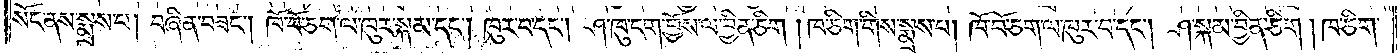སོང་ནས་སྨྲས་པ། བཞིན་བཟང༌། ཁོ་བོ་ཅག་ལ་ཁུར་སྐམ་དང༌། ཁུར་བ་དང༌། ཤ་ཁུ་དག་བྱོས་ལ་བྱིན་ཅིག །ཁ་ཅིག་གིས་སྨྲས་པ། ཁོ་བོ་ཅག་ལ་ཁུར་བ་དང༌། ཤ་སྐམ་བྱིན་ཅིག །ཁ་ཅིག་
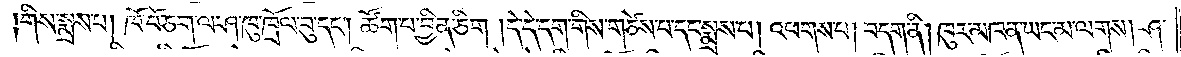གིས་སྨྲས་པ། ཁོ་བོ་ཅག་ལ་ཤ་ཁུ་ཁྲོལ་བུ་དང༌། ཚོག་པ་བྱིན་ཅིག །དེ་དེ་དག་གིས་གཙེས་པ་དང་སྨྲས་པ། འཕགས་པ། བདག་ནི། ཁུར་མཁན་ཡང་མ་ལགས། ཤ་
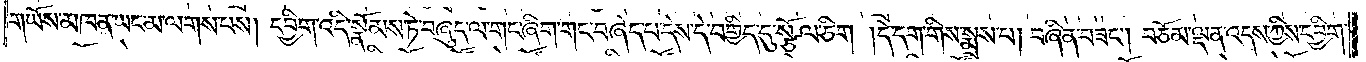གཡོས་མཁན་ཡང་མ་ལགས་པས། དབྱིག་འདི་སྣོམས་ཏེ་བཞུད་ལ་གང་ཞིག་གང་བཞེད་པ་དེས་དེ་བགྱིད་དུ་སྩོལ་ཅིག །དེ་དག་གིས་སྨྲས་པ། བཞིན་བཟང༌། བཅོམ་ལྡན་འདས་ཀྱིས་དབྱིག་
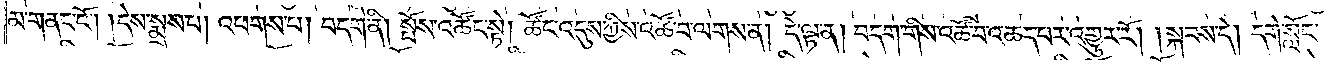མ་གནང་ངོ༌། །དེས་སྨྲས་པ། འཕགས་པ། བདག་ནི། སྤོས་འཚོང་སྟེ། ཚོང་འདུས་ཀྱིས་འཚོ་བ་ལགས་ན། དེ་ལྟ་ན། བདག་གིས་འཚོ་བ་འཆད་པར་འགྱུར་རོ། །སྐབས་དེ། དགེ་སློང་
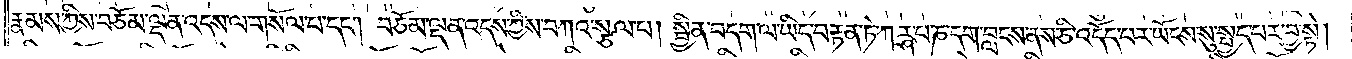རྣམས་ཀྱིས་བཅོམ་ལྡན་འདས་ལ་གསོལ་པ་དང༌། བཅོམ་ལྡན་འདས་ཀྱིས་བཀའ་སྩལ་པ། སྦྱིན་བདག་ལ་ཡིད་བརྟན་ཏེ་ཀརྴ་པ་ཎ་དག་བླངས་ནས་ཅི་འདོད་པར་ཡོངས་སུ་སྤྱད་པར་བྱ་སྟེ།
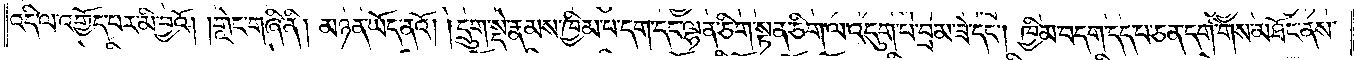འདི་ལ་འགྱོད་པར་མི་བྱའོ། །གླེང་གཞི་ནི། མཉན་ཡོད་ནའོ། །དྲུག་སྡེ་རྣམས་ཁྱིམ་པ་དག་དང་ལྷན་ཅིག་སྟན་ཅིག་ལ་འདུག་པ་བྲམ་ཟེ་དང༌། ཁྱིམ་བདག་དད་པ་ཅན་དག་གིས་མཐོང་ནས་
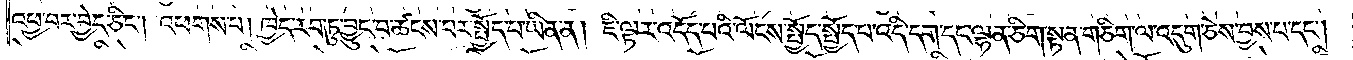འཕྱ་བར་བྱེད་ཅིང༌། འཕགས་པ། ཁྱེད་རབ་ཏུ་བྱུང་བ་ཚངས་པར་སྤྱོད་པ་ཡིན་ན། ཇི་ལྟར་འདོད་པའི་ལོངས་སྤྱོད་སྤྱོད་པ་འདི་དག་དང་ལྷན་ཅིག་སྟན་གཅིག་ལ་འདུག་ཅེས་བྱས་པ་དང༌།
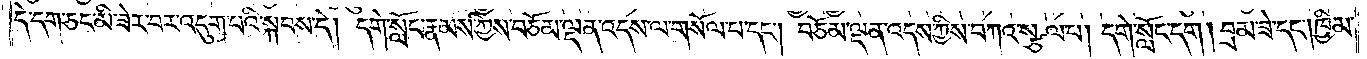དེ་དག་ཅང་མི་ཟེར་བར་འདུག་པའི་སྐབས་དེ། དགེ་སློང་རྣམས་ཀྱིས་བཅོམ་ལྡན་འདས་ལ་གསོལ་པ་དང༌། བཅོམ་ལྡན་འདས་ཀྱིས་བཀའ་སྩལ་པ། དགེ་སློང་དག། བྲམ་ཟེ་དང༌། ཁྱིམ་
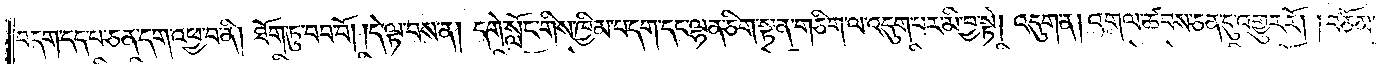བདག་དད་པ་ཅན་དག་འཕྱ་བ་ནི། ཐོག་ཏུ་བབ་བོ། །དེ་ལྟ་བས་ན། དགེ་སློང་གིས་ཁྱིམ་པ་དག་དང་ལྷན་ཅིག་སྟན་གཅིག་ལ་འདུག་པར་མི་བྱ་སྟེ། འདུག་ན། འགལ་ཚབས་ཅན་དུ་འགྱུར་རོ། །བཅོམ་
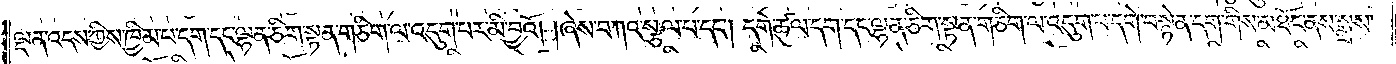ལྡན་འདས་ཀྱིས་ཁྱིམ་པ་དག་དང་ལྷན་ཅིག་སྟན་གཅིག་ལ་འདུག་པར་མི་བྱའོ། །ཞེས་བཀའ་སྩལ་པ་དང༌། དགེ་ཚུལ་དག་དང་ལྷན་ཅིག་སྟན་གཅིག་ལ་འདུག་པ་དགེ་བསྙེན་དག་གིས་མཐོང་ནས་སྨྲས་
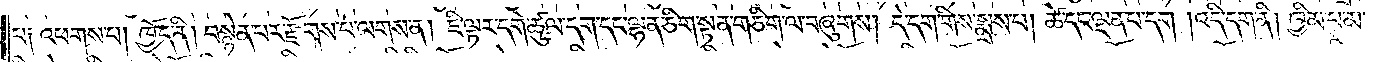པ༑ འཕགས་པ། ཁྱོད་ནི། བསྙེན་པར་རྫོགས་པ་ལགས་ན། ཇི་ལྟར་དགེ་ཚུལ་དག་དང་ལྷན་ཅིག་སྟན་གཅིག་ལ་བཞུགས། དེ་དག་གིས་སྨྲས་པ། ཚེ་དང་ལྡན་པ་དང༌། འདི་དག་ནི། ཁྱིམ་པ་མ་
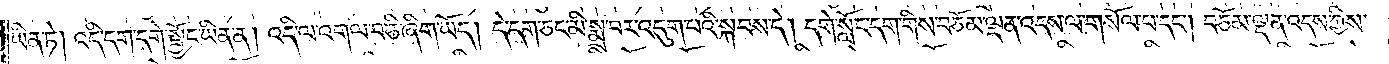ཡིན་ཏེ། འདི་དག་དགེ་སྦྱོང་ཡིན་ན། འདི་ལ་འགལ་བ་ཅི་ཞིག་ཡོད། དེ་དག་ཅང་མི་སྨྲ་བར་འདུག་པའི་སྐབས་དེ། དགེ་སློང་དག་གིས་བཅོམ་ལྡན་འདས་ལ་གསོལ་པ་དང༌། བཅོམ་ལྡན་འདས་ཀྱིས་
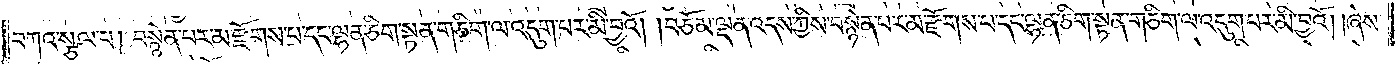བཀའ་སྩལ་པ། བསྙེན་པར་མ་རྫོགས་པ་དང་ལྷན་ཅིག་སྟན་གཅིག་ལ་འདུག་པར་མི་བྱའོ། །བཅོམ་ལྡན་འདས་ཀྱིས་བསྙེན་པར་མ་རྫོགས་པ་དང་ལྷན་ཅིག་སྟན་གཅིག་ལ་འདུག་པར་མི་བྱའོ། །ཞེས་
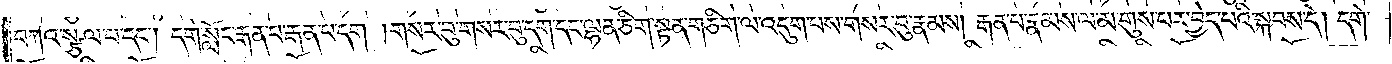བཀའ་སྩལ་པ་དང༌། དགེ་སློང་རྒན་པ་རྒན་པ་དག །གསར་བུ་གསར་བུ་དག་དང་ལྷན་ཅིག་སྟན་གཅིག་ལ་འདུག་པས་གསར་བུ་རྣམས། རྒན་པ་རྣམས་ལ་མ་གུས་པར་བྱེད་པའི་སྐབས་དེ། དགེ་
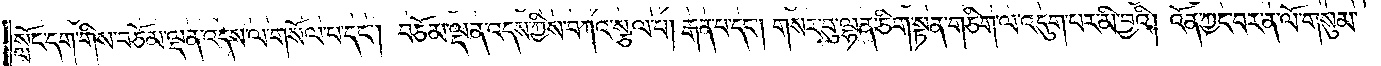སློང་དག་གིས་བཅོམ་ལྡན་འདས་ལ་གསོལ་པ་དང༌། བཅོམ་ལྡན་འདས་ཀྱིས་བཀའ་སྩལ་པ། རྒན་པ་དང༌། གསར་བུ་ལྷན་ཅིག་སྟན་གཅིག་ལ་འདུག་པར་མི་བྱའི། འོན་ཀྱང་བར་ན་ལོ་གསུམ་
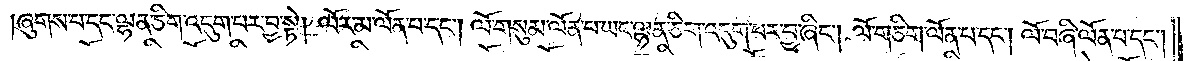ཞུགས་པ་དང་ལྷན་ཅིག་འདུག་པར་བྱ་སྟེ། ལོར་མ་ལོན་པ་དང༌། ལོ་གསུམ་ལོན་པ་ཡང་ལྷན་ཅིག་འདུག་པར་བྱ་ཞིང༌། ལོ་གཅིག་ལོན་པ་དང༌། ལོ་བཞི་ལོན་པ་དང༌།
